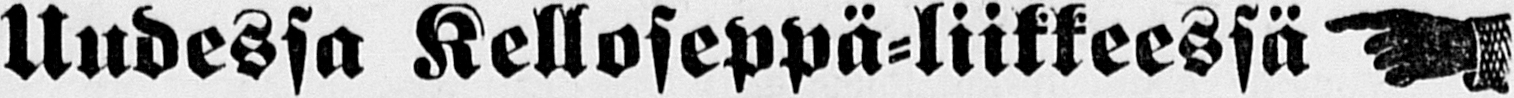Uudessa Kelloseppä-liitteessä
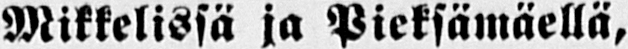Mikkelissä ja Pieksämäellä,
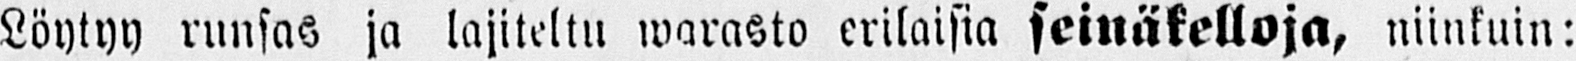Löytyy runsas ja lajiteltu warasto erilaisia seinäkelloja, niinkuin:
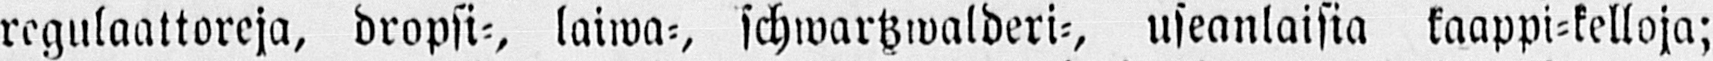regulaattoreja, dropsi-, laiwa-, useanlaisia kaappi-kelloja;
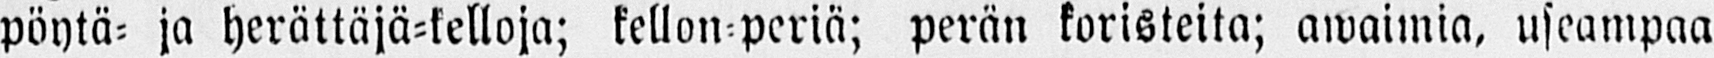pöytä- ja herättäjä-kelloja; kellon-periä; perän koristeita; awaimia, useampaa
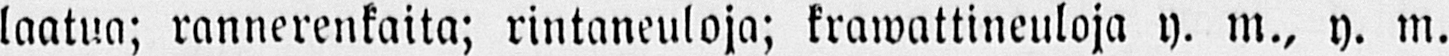laatua; rannerenkaita; rintaneuloja; krawattineuloja y. m., y. m.
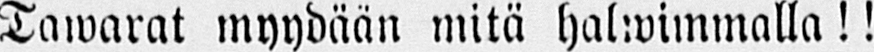Tawarat myydäan mitä halwimmalla!!
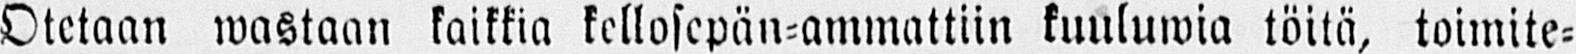Otetaan wastaan kaikkia kellosepän-ammattiin kuuluwia töitä, toimite-
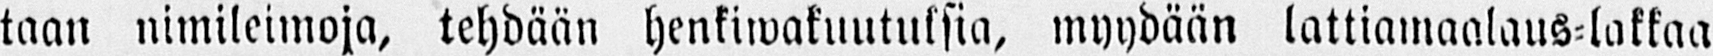taan nimileimoja, tehdään henkiwakuutuksia, myydään lattiamaalaus-lakkaa
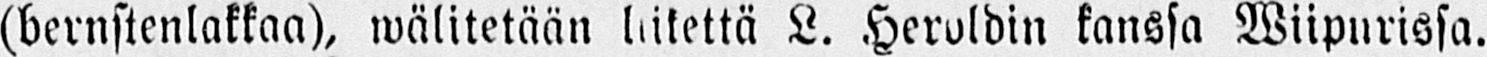(bernstenlakkaa), wälitetään liikettä L. Heroldin kanssa Wiipurissa.
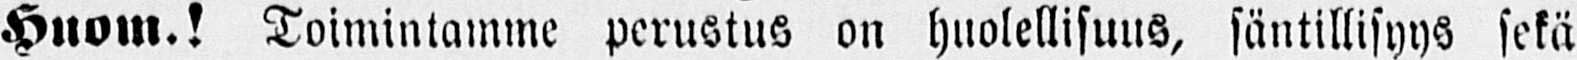Huom! Toimintamme perustus on huolellisuus, säntillisyys sekä
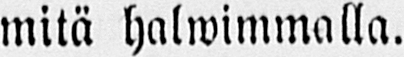mitä halwimmalla.
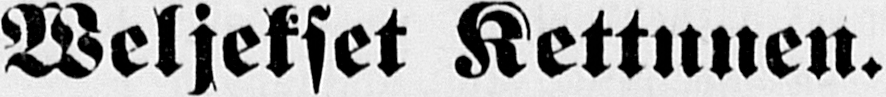Weljekset Kettunen.
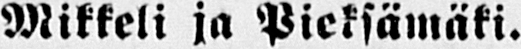Mikkeli ja Pieksämäki.
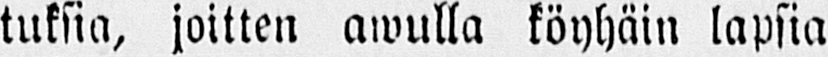tuksia, joitten awulla köyhäin lapsia
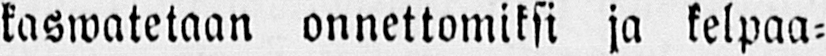kaswatetaan onnettomiksi ja kelpaa-
